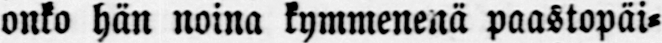onko hän noina kymmenenä paastopäi-
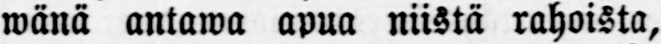wänä antawa apua niistä rahoista,
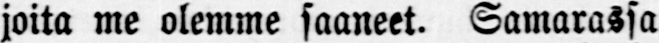joita me olemme saaneet. Samarassa
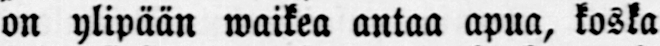on ylipään waikea antaa apua, koska
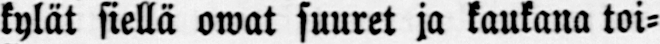kylät siellä owat suuret ja kaukana toi-
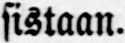sistaan.
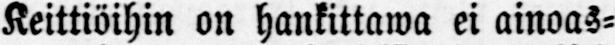Keittiöihin on hankittawa ei ainoas-
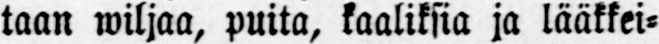taan wiljaa, puita, kaaliksia ja lääkkei-
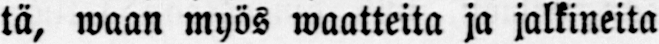tä, waan myös waatteita ja jalkineita
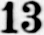13
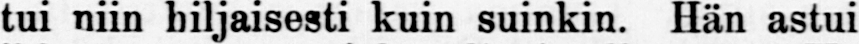tui niin hiljaisesti kuin suinkin. Hän astui
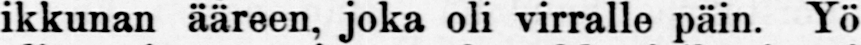ikkunan ääreen, joka oli virralle päin. Yö
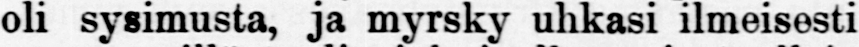oli sysimusta, ja myrsky uhkasi ilmeisesti
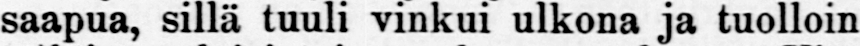saapua, sillä tuuli vinkui ulkona ja tuolloin
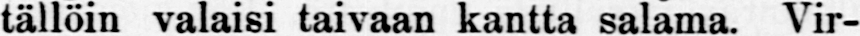tällöin valaisi taivaan kantta salama. Vir-
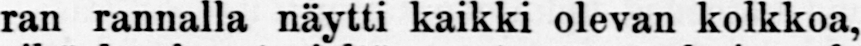ran rannalla näytti kaikki olevan kolkkoa,
